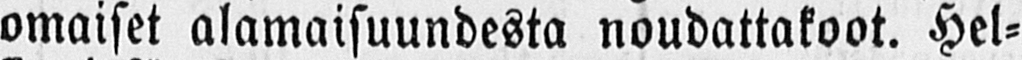omaiset alamaisuundesta noudattakoot. Hel-
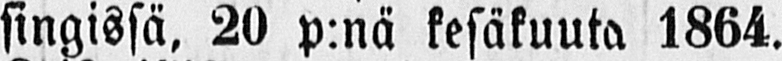singissä, 20 p:nä kesäkuuta 1864.
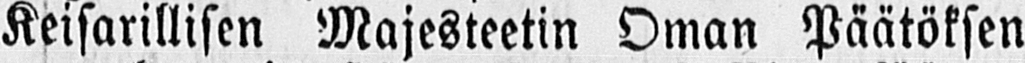Keisarillisen Majesteetin Oman Päätöksen
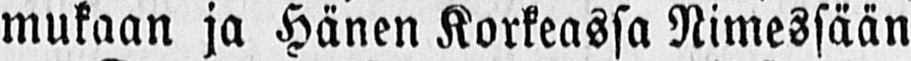mukaan ja Hänen Korkeassa Nimessään
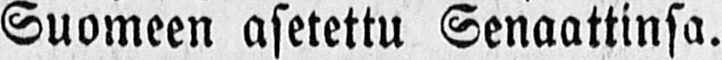Suomeen asetettu Senaattinsa.
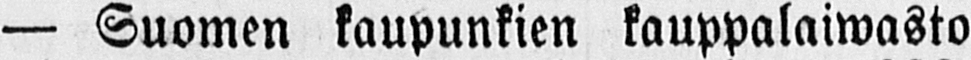— Suomen kaupunkien kauppalaiwasto
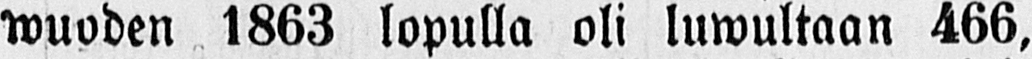wuoden 1863 lopulla oli luwultaan 466,
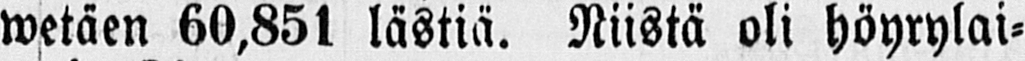wetäen 60,851 lästiä. Niistä oli höyrylai-
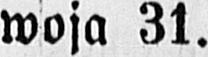woja 31.
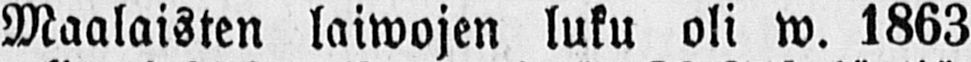Maalaisten laiwojen luku oli w. 1863
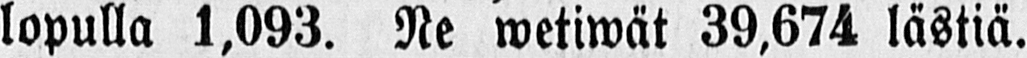lopulla 1,093. Ne wetiwät 39.674 lästiä.
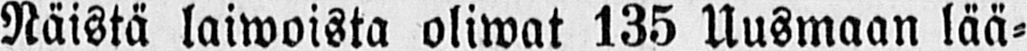Näistä laiwoista oliwat 135 Uusmaan lää-
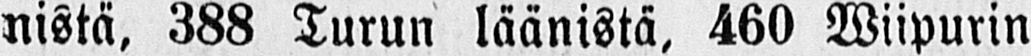nistä, 388 Turun läänistä, 460 Wiipurin
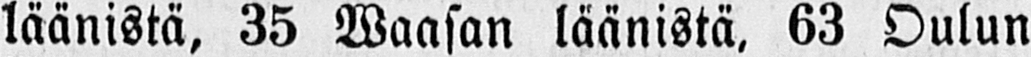läänistä, 35 Waasan läänistä, 63 Oulun
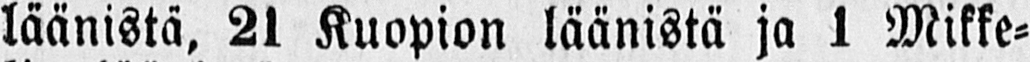läänistä, 21 Kuopion läänistä ja 1 Mikke-
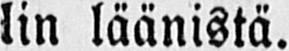lin läänistä.
